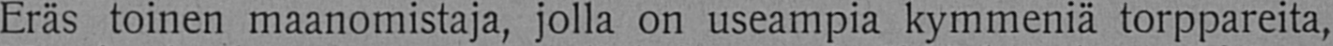Eräs toinen maanomistaja, jolla on useampia kymmeniä torppareita,
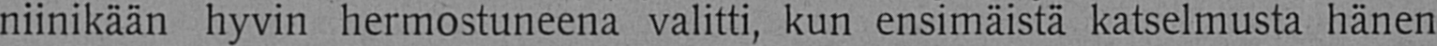niinikään hyvin hermostuneena valitti, kun ensimäistä katselmusta hänen
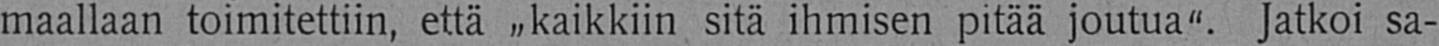maallaan toimitettiin, että „kaikkiin sitä ihmisen pitää joutua". Jatkoi sa-
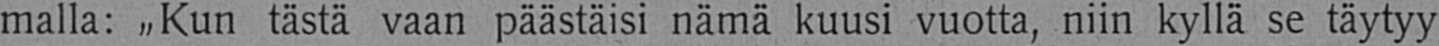malla: „Kun tästä vaan päästäisi nämä kuusi vuotta, niin kyllä se täytyy
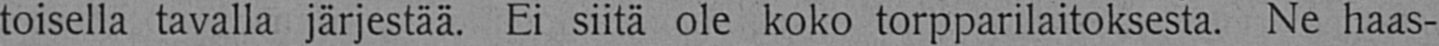toisella tavalla järjestää. Ei siitä ole koko torpparilaitoksesta. Ne haas-
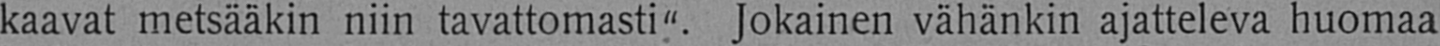kaavat metsääkin niin tavattomasti". Jokainen vähänkin ajatteleva huomaa
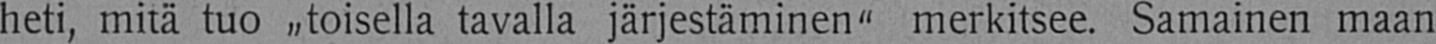heti, mitä tuo „toisella tavalla järjestäminen" merkitsee. Samainen maan
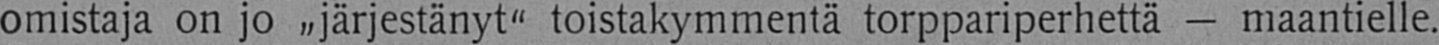omistaja on jo „järjestänyt" toistakymmentä torppariperhettä — maantielle.
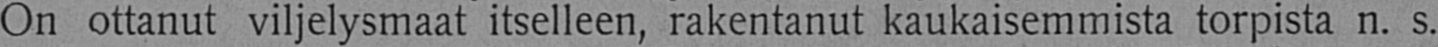On ottanut viljelysmaat itselleen, rakentanut kaukaisemmista torpista n. s.
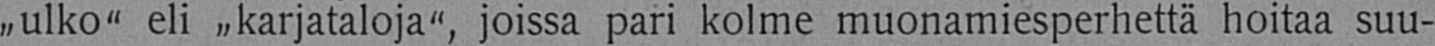„ulko" eli „karjataloja", joissa pari kolme muonamiesperhettä hoitaa suu-
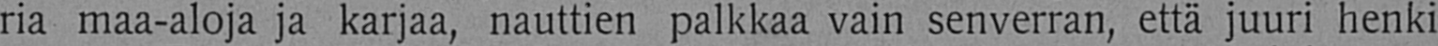ria maa-aloja ja karjaa, nauttien palkkaa vain senverran, että juuri henki
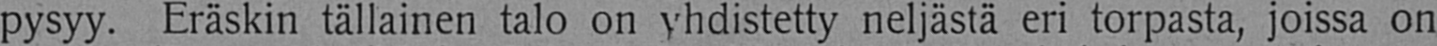pysyy. Eräskin tällainen talo on yhdistetty neljästä eri torpasta, joissa on
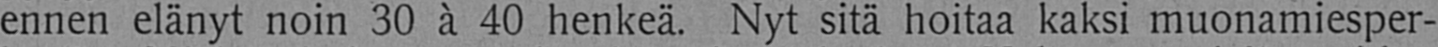ennen elänyt noin 30 ä 40 henkeä. Nyt sitä hoitaa kaksi muonamiesper-
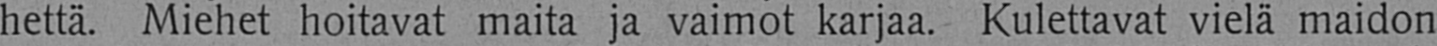hettä. Miehet hoitavat maita ja vaimot karjaa. Kulettavat vielä maidon
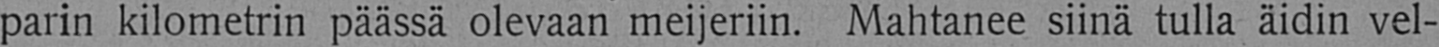parin kilometrin päässä olevaan meijeriin. Mahtanee siinä tulla äidin vel-
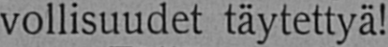vollisuudet täytettyä!
